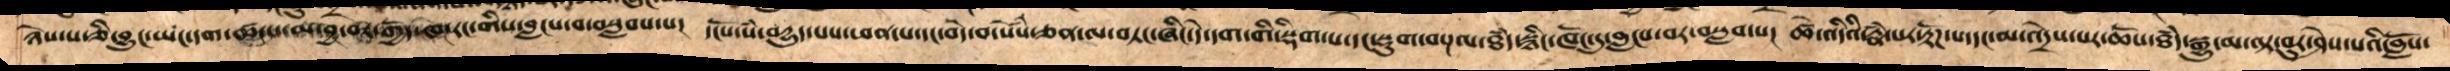ཉེས་པ་ཅི་བྱུང་ཡང་དག་ཚངས་མ་བྱ་བར་གྱོད་ཁེ་རང་གིས་བླངས་བ་བསླབས་པ།  དངོས་སཾ་བདྱུད་པས་ཕན་པ་དང་བདེ་བ་སེཾས་ཅན་ལ་བཏང་ཞིང་དེ་དག་གི་སྡིག་པ་དང་སྡུག་བསྔལ་ཐཾད་སྙིང་ཁོང་དུ་བླངས་བར་བསླབ་པ།  ཚེ་འདིའི་རྣཾ་པར་རྟོཌ་པ་དང་མ་འདྲེས་པར་ཆོས་ཐཾད་སྒྱུ་མ་ལྟ་བུར་ཤེས་པའི་བློས་
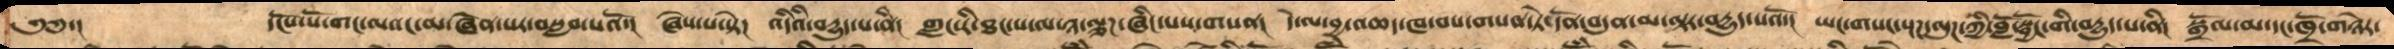༄༅་།      དངོས་པོ་གང་ལའང་མ་ཞེན་པར་བསླབ་པའོ་།  ཞེས་པ་སྟེ།  འདིའི་བདྱུད་པ་ནི།  གླང་རི་ཐང་པ་ལ་ཉ་ལྕཌ་ཞིང་པས་གསན།  དེ་ལ་བྱ་འཆད་ཁ་བས་གསན་ཏེ་དོན་བདུན་མ་ལྟར་བདྱུད་པའོ་།  ཡང་གསང་ལུཌ་ཀྱི་བློ་སྦྱོང་གི་བདྱུད་པ་ནི།  སྒྲོལ་མ་དང་ཁྲོ་གཉེར་
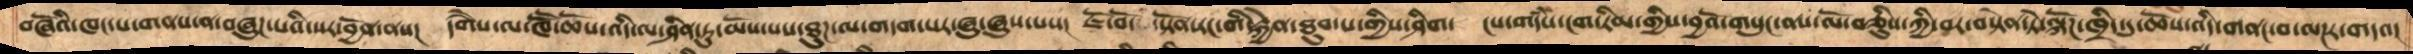བཞོའི་ཁང་པ་གནས་ན་བཞུཌ་པའི་སར་བྱོན་ནས།  དགཻས་ལ་ཁཽ་ཆོས་འདི་ལ་ཤིན་ཏུ་མོས་པས་ཐུཌ་ལ་གདག་པར་ཞུ་ཞུས་པས།  ཇོ་བོ་སྟོན་རང་གི་རྐྱེན་ཐུབ་པ་གྱིས་ཤིག་  ངས་གདཾས་ངག་རིམ་གྱིས་བྱའོ་གསུང་ནས་ལོ་བཅིུས་ཀྱི་བར་བསྟེན་ཏེ་ལྐོཌ་ཁྲིད་དུ་ཆོས་འདི་གནང་བ་ལཌར་གདའ།
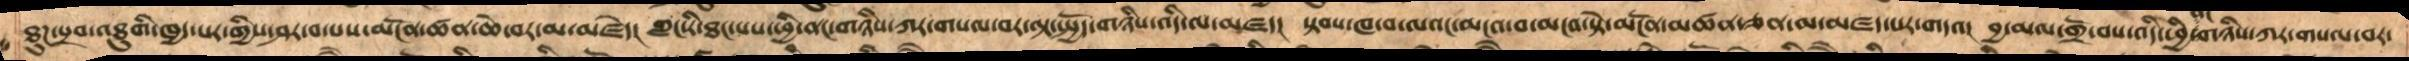ཐུཌ་སྲབ་འཐུགི་ཁྱད་པར་གྱིས་ཤར་བ་པས་མངོན་ཚན་ཆེ་བར་མ་མཛེད། གླང་རི་ཐང་པས་ཕྱི་ནང་གཉིས་ཀར་གསལ་བར་ལྟ་སྤྱོད་གཉིས་འདི་ལ་མཛད། སྟབས་ཁ་བ་ལའང་མངའ་བ་མངའ་སྟེ་མངོན་མཚན་ཅན་མ་མཛད་པར་གདའ། བྱ་མལ་གྲོ་བས་འདི་ཕྱི་ནང་གཉིས་ཀར་གསལ་བར་
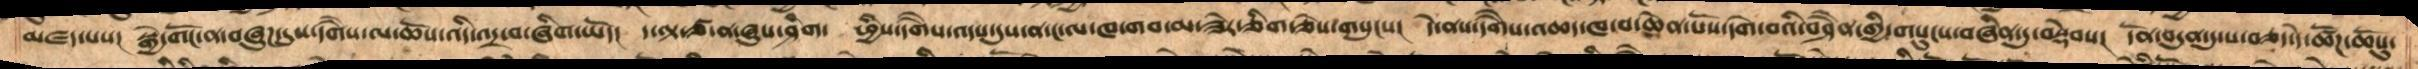མཛད་པས་།  སྒྱེ་གོང་ན་བཞུཌ་དུས་དགཻས་ལ་ཆོས་འདི་འདྲ་བ་ཞིག་ཡོད།  ད་ལྟ་ཙ་ན་ཞུས་ཤིག་  ཕྱིས་དགཻས་འདས་དུས་ན་ང་ལ་ཁ་གབ་མ་ཟེར་ཅིག་ཅེས་གསུངས།  དེ་ནས་དགཻས་འཆད་ཁ་བ་ཆེན་པོས་དགེ་བའི་བཤཻན་གྱི་གསུངས་བཞིན་དུ་བསྡེབས།  དོན་བདུན་དུ་ས་བཅད་དེ་ཚོཌ་ཆོསུ་
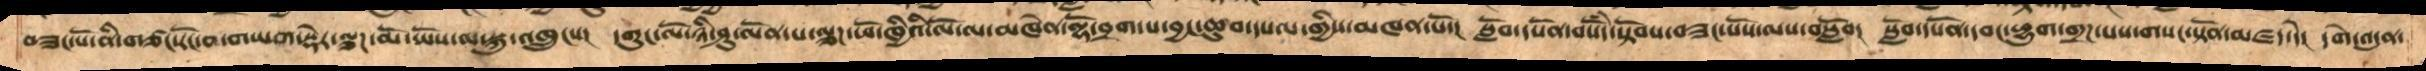བཟང་པོ་ནི་གཙང་རོང་བ་གཡག་སྡེར་ལྕཌ་མོ་ཡོས་ལ་སྐུ་འཁྲུངས།   དགུང་ལོ་ཉི་ཤུ་ལོན་པ་ལྕཌ་ཕོ་ཁྱིའི་ལོ་ལ་མཁེན་ལྷོ་བྲག་པ་བྱང་ཆུབ་དཔལ་གྱིས་མཁན་པོ་།  སློབ་དཔོན་བསོདཾ་སྟོབས་བཟང་པོས་ལས་བསློབ།  སློབ་དཔོན་དབང་ཕྱུག་གྲཌ་པས་གསང་སྟོན་མཛད་དེ།   དགེ་འདུན་
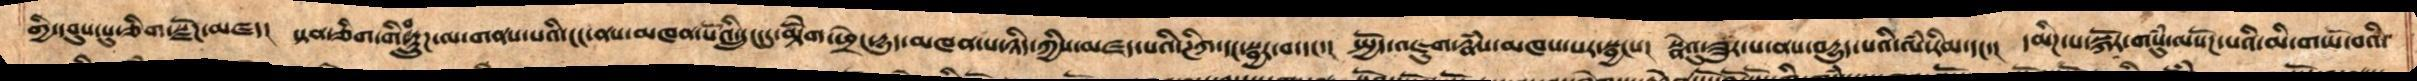གྱི་དབུས་སུ་ཅིག་སྫོཌ་མཛད། སྟན་ཅིག་གི་བརྟུུཌ་ལ་གནས་པའི་ངང་ནས་མཁན་པོའི་དྲུང་དུ་མྟེོག་ཕྲེང་དྱུད་མཁན་པ་ཉིད་ཀྱིས་མཛད་པའི་ཊིཀ་དང་སྦྱར་བ་དང་། སྤྱོད་འཇུག་རྣཾས་མཁས་པར་སྦྱངས། སྣེའུ་ཟུར་པ་ནས་བདྱུད་པའི་ལཾ་རིམ་དང་། དམིཌ་པ་སྐོར་གསུཾ་ལསོཌ་པ་མི་གཡོ་བའི་
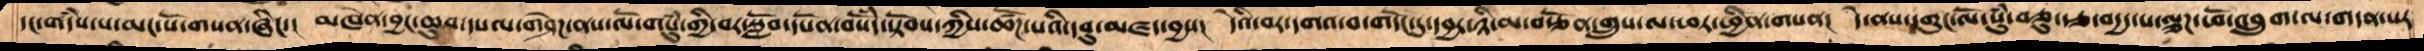དང་གདཾས་པ་མང་པོ་གསན་ཞིང་།  མཁེན་བྱང་ཆུབ་དཔལ་གཤེཌ་ནས་ལོ་གསུཾ་གྱི་བར་སློབ་དཔོན་བསོཾད་སྟོབས་ཀྱིས་ཚོཌ་པའི་དབུ་མཛད་བྱས།  དེའི་བར་དགའ་བ་གདོང་དུ་དབྱར་ཉི་མ་བརྩོན་གྲུས་ལ་ཕར་ཕྱིན་གསན།  དེ་ནས་དགུང་ལོ་སུཾ་བཅུ་རྩ་བདྱད་པ་ལྕཌ་ཕོ་འབྲུག་ལ་གདན་སར
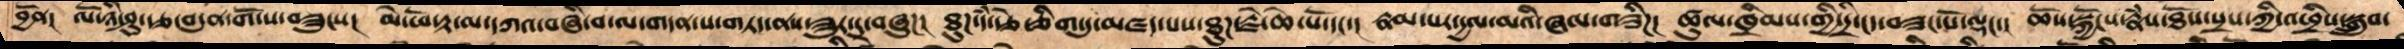བྱོན།  ལོ་ཉི་ཤུ་རྩ་བདུན་གོ་ས་བཟུངས།   མེ་ཕོ་རྟ་ལ་དཀའ་བཞི་བ་ལ་གདན་ས་གཏད་ནས་ཟུར་དུ་བཞུཌ།  ཐུཌ་དཾ་རྩེ་ཅིག་དུ་མཛད་པས་ཐུཌ་རྗེ་ཆེ་པོ་དང་།  རྣམ་པར་དྱལ་མའི་ཞལ་གཟིཌ།  ཚུལ་ཁྲིམས་གྱི་དྲི་ངད་བཟང་པོ་ལྡང་།  ཆོས་སྐྱོངས་རྣཾས་ཐོས་སྲས་ཀྱི་འཕྲིས་སྒྲུབ་
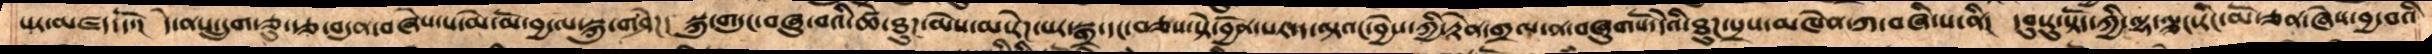པར་མཛད་དོ་།  དེ་ནས་དྲུག་ཅུ་རྩ་བདུན་བཞེས་པ་མེ་མོ་བྱ་ལ་སྐུ་གཤེཌ།  སྐུ་གདུང་བཞུ་བའི་ཚེ་ཐུཌ་མེས་མ་རེཌ་པར་སྒྲ་དང་བཅས་སྟེ་བྱོན་པར་ད་ལྟའང་བྱེས་ཀྱི་རྟེན་གྲལ་ན་བཞུགསོ་དེའི་ཐུཌ་སྲས་མཁེན་ཀ་བཞི་པ་ནི།  དབུ་རུ་སྟོད་ཀྱི་ལྷ་ལྕང་རིང་མོ་ཅན་ཞེས་བྱ་བའི
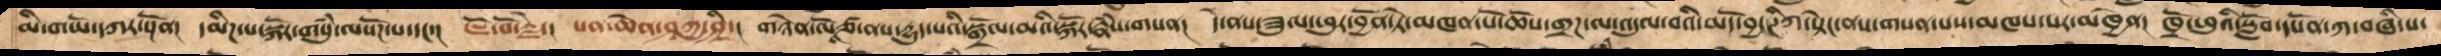མི་གཡོ་དཀར་སྔོན།  དམིཌ་པ་སྐོར་གསུཾ་ལསོཌ་པ་དང་།   ཇོ་བོ་རྗེ་།   པན་ཆེན་ཤཱཀྱ་ཤྲི་།  གཉེན་ལོཙཱ་ནས་དྱུད་པའི་སྒྲོལ་མའི་སྐོར་རྣཾས་གསན།  དེ་ནས་ཟུལ་ཕུར་བྱོན་ཏེ་མཁན་པོ་ཆོས་གྲཌ་ལ་འདུལ་བའི་མདོ་བྱང་ཌཀི་སྟེང་ནས་གསན་པས་མཁས་པར་མཁྱེན།  ཁྲོ་ཕུའི་སློབ་དཔོན་ཀ་བཞི་པ་
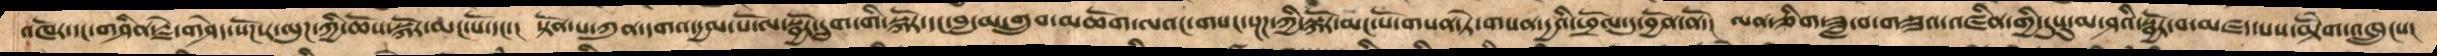འཁོར་དང་གཤིན་རྗེ་གཤེད་སོཌ་ར་ལུཌ་ཀྱི་ཆོས་སྐོར་མང་པོ་དང་། སྟོན་པ་ཀུན་དགའ་དྱལ་པོ་ལ་སྦྱོར་དྲུག་གི་སྐོར་དང་བླ་མ་གྲུབ་མཆོག་ལའང་གསང་སྔཌ་ཀྱི་སྐོར་མང་པོ་གསན་ཏེ་གསན་དྱའི་ཕྲོལ་དུ་བྱོན་ནོ།  ལན་ཅིག་ཟླ་བ་གཟའ་འཛིན་གྱི་དུསུ་མ་ཤའི་སྦྱོར་བ་མཛད་པས་མྟེགོ་འཁྲུངས།
